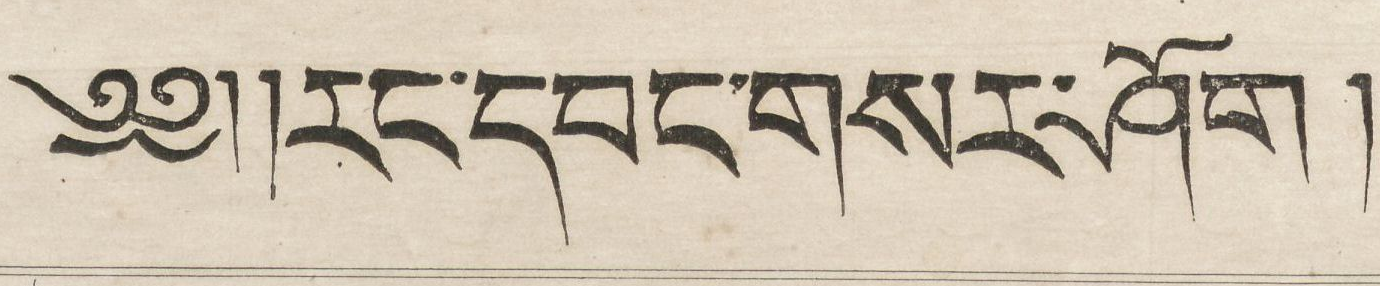༄༅། །རང་དབང་གསར་ཤོག །
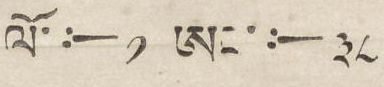ལོ་ :— ༡ ཨང་ :— ༣༨
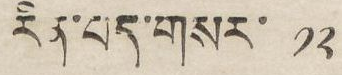རིན་པད་གསར་ ༡༢
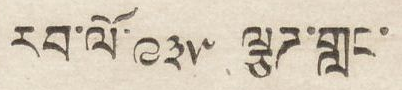རབ་ལོ་ ༩༣༥ ལྕཊ་གླང་
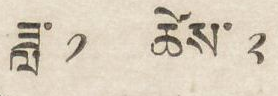ཟླ་ ༡ ཚེས་ ༢
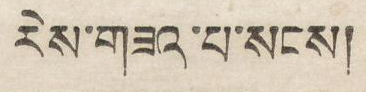རེས་གཟའ་པ་སངས།
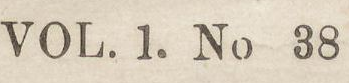VOL. 1. No 38
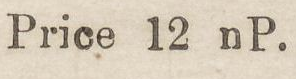Price 12 nP.
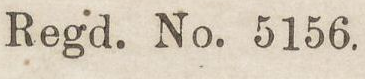Regd. No. 5156
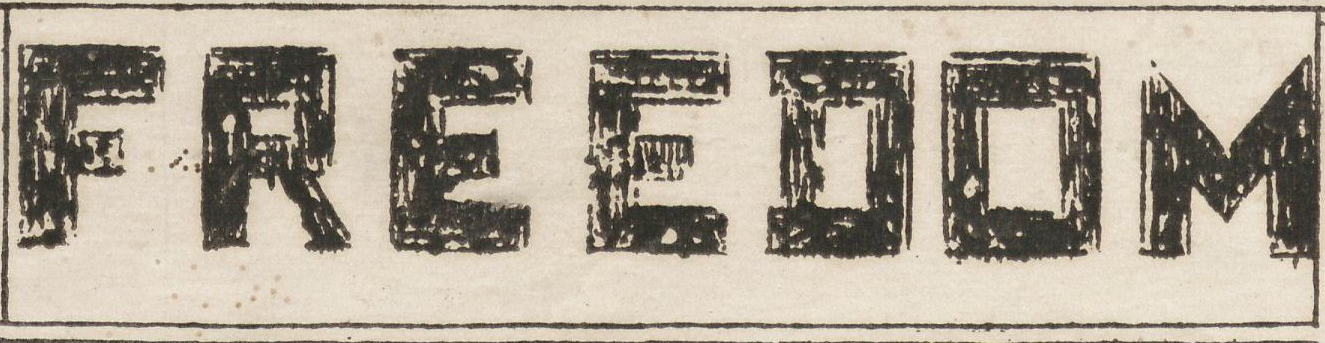FREEDOM
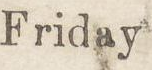Friday
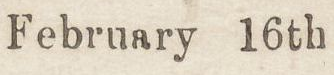February 16th
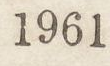1961
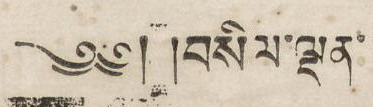༄༅། །བསིལ་ལྡན་
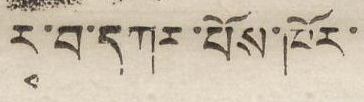རྭ་བ་དཀར་པོས་ཁོར་
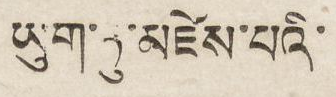ཡུག་ཏུ་མཛེས་པའི་
